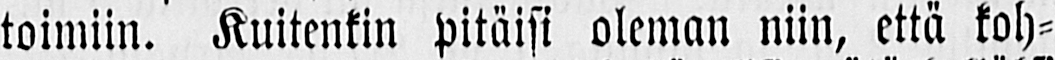toimiin. Kuitenkin pitäisi oleman niin, että koh-
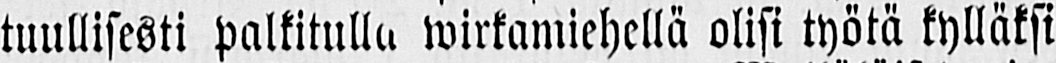tuullisesti palkitulla wirkamiehellä olisi työtä kylläksi
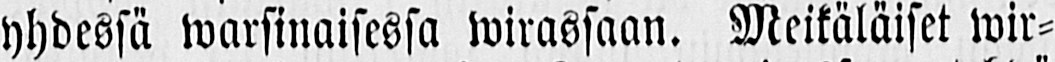yhdessä warsinaisessa wirassaan. Meikäläiset wir-
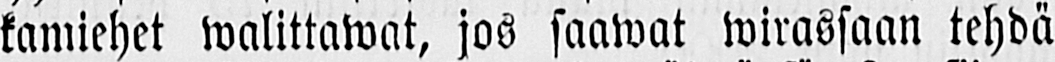kamiehet walittawat, jos saawat wirassaan tehdä
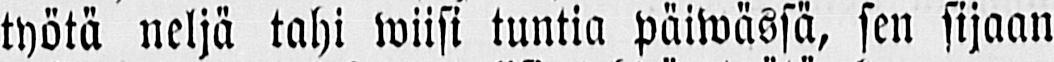työtä neljä tahi wiisi tuntia päiwässä, sen sijaan
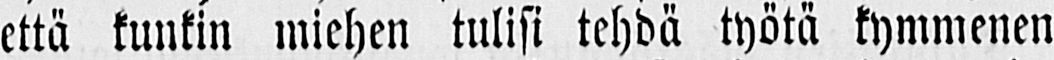että kunkin miehen tulisi tehdä työtä kymmenen
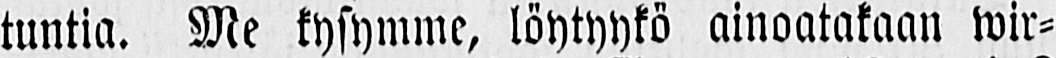tuntia. Me kysymme, löytyykö ainoatakaan wir-
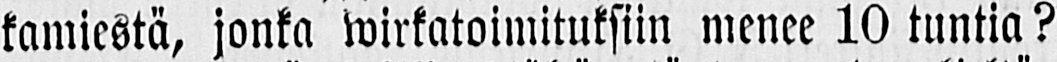kamiestä, jonka wirkatoimituksiin menee 10 tuntia?
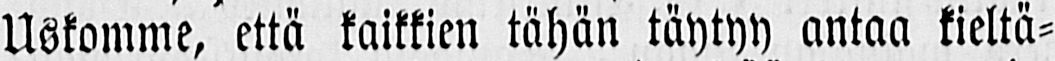Uskomme, että kaikkien tähän täytyy antaa kieltä-
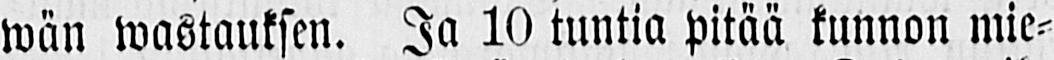wän wastauksen. Ja 10 tuntia pitää kunnon mie-
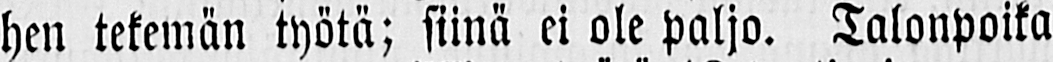hen tekemän työtä; siinä ei ole paljo. Talonpoika
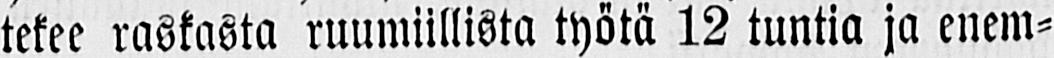tekee raskasta ruumiillista työtä 12 tuntia ja enem-
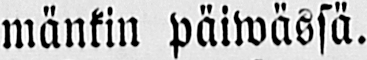mänkin päiwässä.
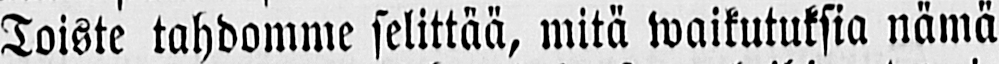Toiste tahdomme selittää, mitä waikutuksia nämä
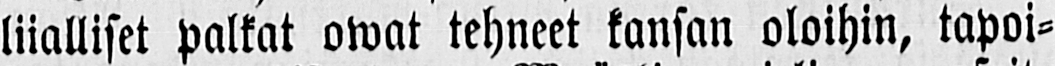liialliset palkat owat tehneet kansan oloihin, tapoi-
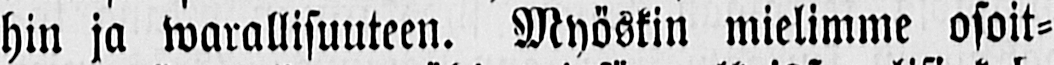hin ja warallisuuteen. Myöskin mielimme osoit-
